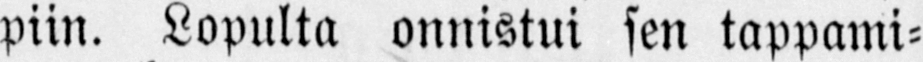piin. Lopulta onnistui sen tappami-
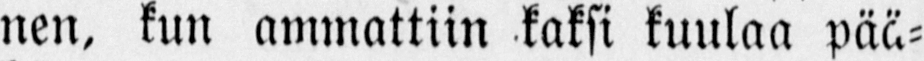nen, kun ammattiin kaksi kuulaa pää-
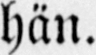hän.
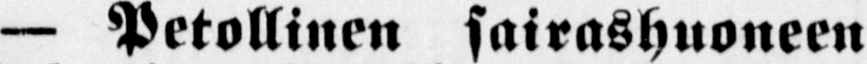— Petollinen sairashuoneen
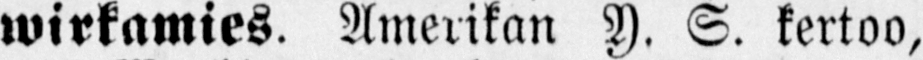wirkamies. Amerikan Y. S. kertoo,
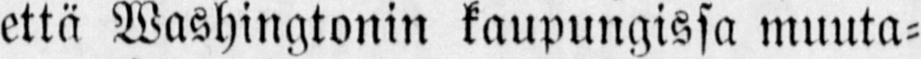että Washingtonin kaupungissa muuta-
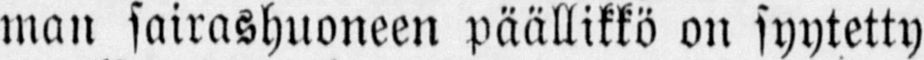man sairashuoneen päällikkö on syytetty
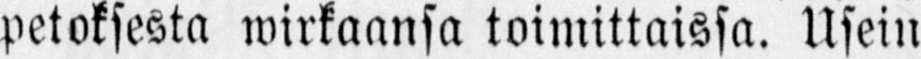petoksesta wirkaansa toimittaissa. Usein
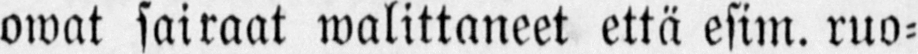owat sairaat walittaneet että esim. ruo-
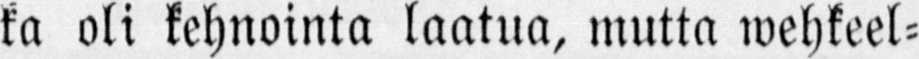ka oli kehnoutta laatua, mutta wehkeel-
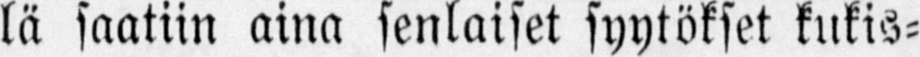lä saatiin aina senlaiset syytökset kukis-
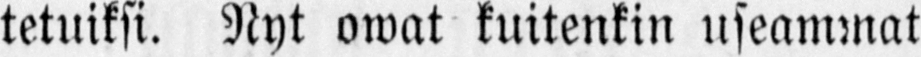tetuiksi. Nyt owat kuitenkin useammat
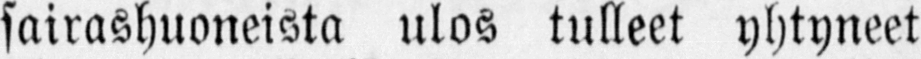sairashuoneista ulos tulleet yhtyneet
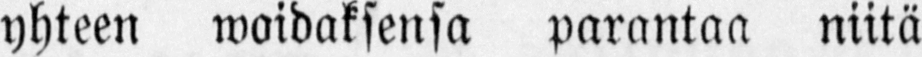yhteen woidaksensa parantaa niitä
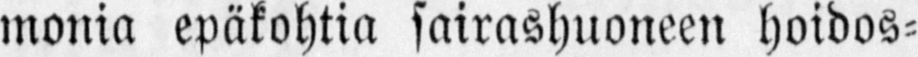monia epäkohtia sairashuoneen hoidos-
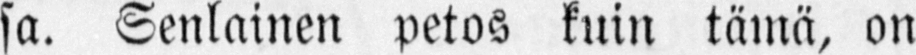sa. Senlainen petos kuin tämä, on
